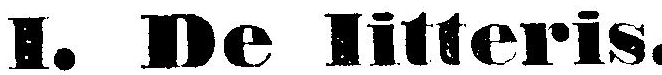I. De litteris.
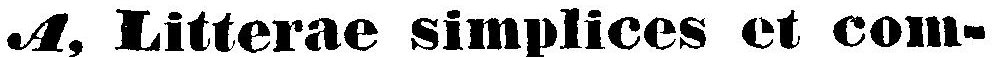A. Litterae simplices et com-
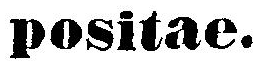positae.
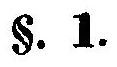§. 1.
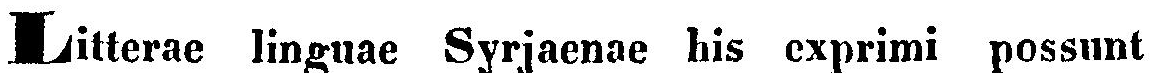Litterae linguae Syrjaenae his exprimi possunt
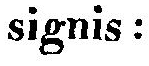signis:
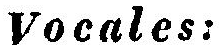Vocales:
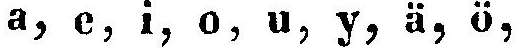a, e, i, o, u, y, ä, ö,
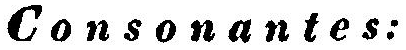Consonantes:
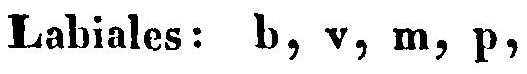Labiales: b, v, m, p,
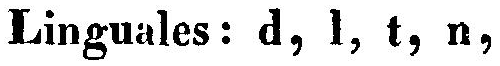Linguales: d, l, t, n,
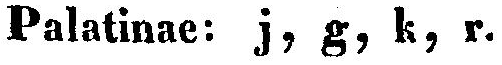Palatinae: j. g, k, r.
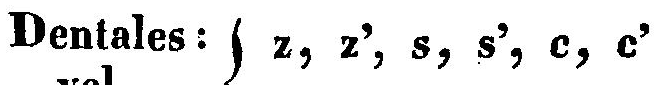Dentales: z, z', s, s', c'
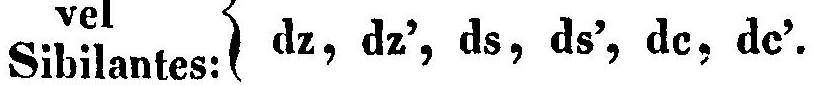Sibilantes: dz, dz', ds, ds', dc, dc'.
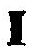I
